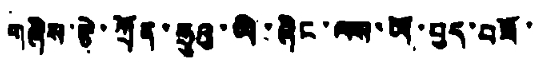གཞིས་རྩེ་ཀོན་ཧྲུའུ་ཡི་ཞིང་ལས་ཡོ་བྱད་བཟོ་
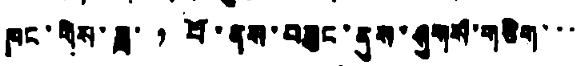ཁང་གིས་ཟླ་ ༡ པོ་ནས་བཟུང་ནུས་ཤུགས་གཅིག་་་
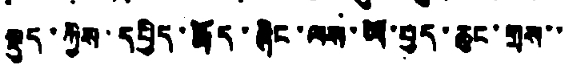སྡུད་ཀྱིས་དཔྱིད་རྨོད་ཞིང་ལས་ཡོ་བྱད་ཆུང་གྲས་་་
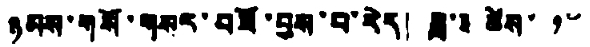ཉམས་གསོ་གསར་བཟོ་བྱས་པ་རེད། ཟླ་༣ ཚེས་ ༡༧
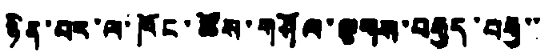ཉིན་བར་ལ་ཁོང་ཚོས་གཤོལ་ལྕགས་བརྒྱད་བརྒྱ་་་
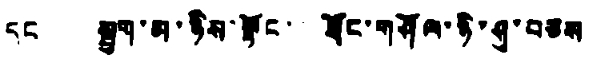དང སྤུག་མ་ཉིས་སྟོང་ ཐོང་གཤོལ་ཉི་ཤུ་བཅས
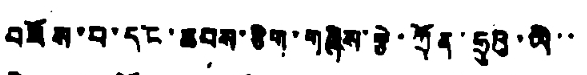བཟོས་པ་དང་ཆབས་ཅིག་གཞིས་རྩེ་ཀྲོན་ཧྲུའུ་ཡི་་
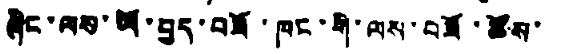ཞིང་ལས་ཡོ་བྱད་བཟོ་ཁང་གི་ལས་བཟོ་ཚོས་་
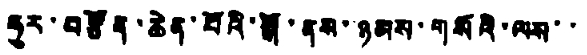ཧུར་བརྩོན་ཆེན་པོའི་སྒོ་ནས་ཉམས་གསོའི་ལས་་
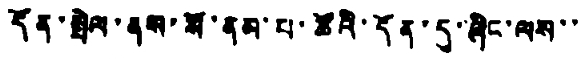དོན་སྤེལ་ནས་སོ་ནམ་པ་ཚོའི་དོན་དུ་ཞིང་ལས་་
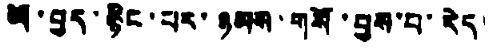ཡོ་བྱད་རྙིང་པར་ཉམས་གསོ་བྱས་པ་རེད་
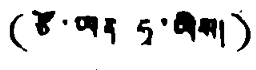(ཙོ་ཡན་ཧྭ་ཡིས།)
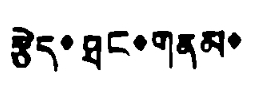རྩེད་ཐང་གནམ་
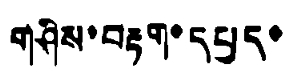གཤིས་བརྟག་དཔྱད་
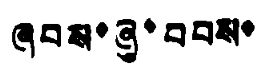ཞབས་ཞུ་བབས་
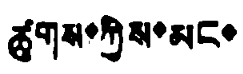ཚུགས་ཀྱིས་མང་
